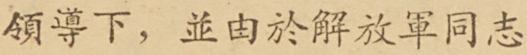領導下，並由於解放軍同志
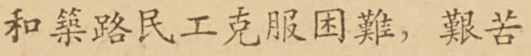和築路民工克服困難，艱苦
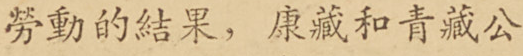勞動的結果，康藏和青藏公
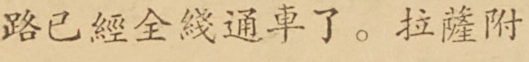路已經全綫通車了。拉薩附
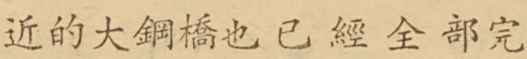近的大鋼橋也已經全部完
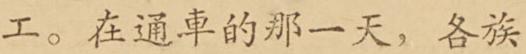工。在通車的那一天，各族
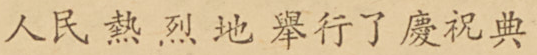人民熱烈地舉行了慶祝典
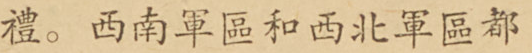禮。西南軍區和西北軍區都
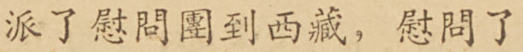派了慰問團到西藏，慰問了
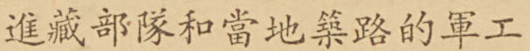進藏部隊和當地築路的軍工
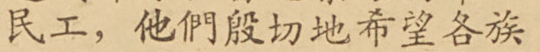民工，他們殷切地希望各族
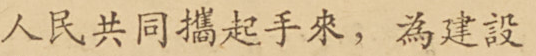人民共同攜起手來，為建設
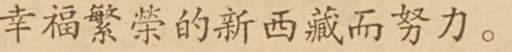幸福繁榮的新西藏而努力。
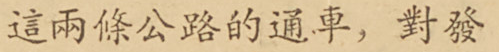這兩條功德通車，對發
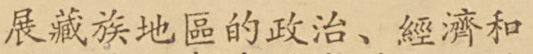展藏族地區的政治、經濟和
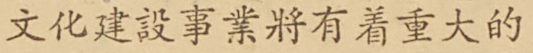文化建設事業將有着重大的
